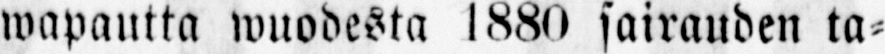wapautta wuodesta 1880 sairauden ta-
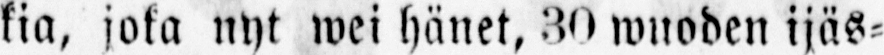kia, joka nyt wei hänet, 30 wuoden ijäs-
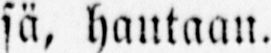sä, hautaan.
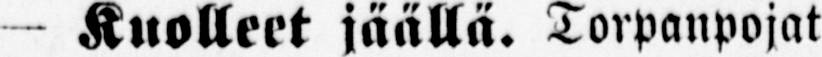— Kuolleet jäällä. Torpanpojat
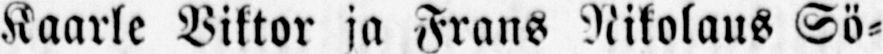Kaarle Viktor ja Frans Nikolaus Sö-
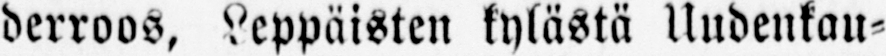derroos, Leppäisten kylästä Uudenkau-
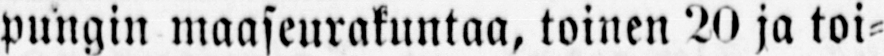pungin maaseurakuntaa, toinen 20 ja toi-
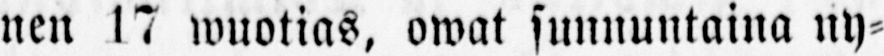nen 17 wuotias, owat sunnuntaina ny-
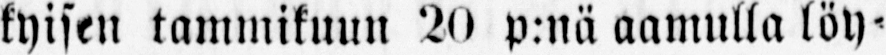kyisen tammikuun 20 p:nä aamulla löy-
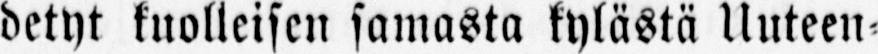detyt kuolleisen samasta kylästä Uuteen-
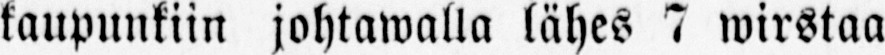kaupunkiin johtawalla lähes 7 wirstaa
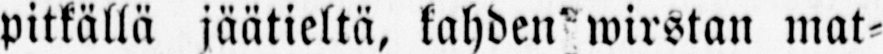pitkällä jäätieltä, kahden wirstan mat-
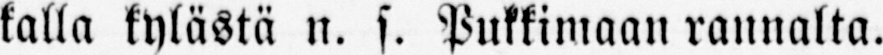kalla kylästä n. s. Pukkimaan rannalta.
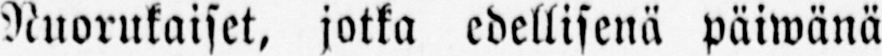Nuorukaiset, jotka edellisenä päiwänä
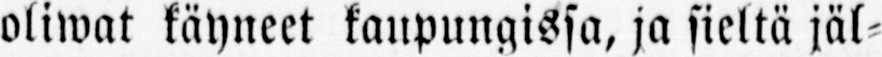oliwat käyneet kaupungissa, ja sieltä jäl-
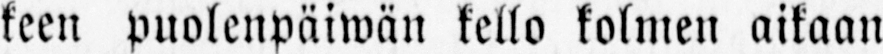keen puolenpäiwän kello kolmen aikaan
